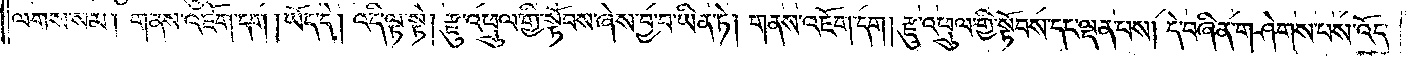ལགས་སམ། གནས་འཇོག་དག །ཡོད་དེ། འདི་ལྟ་སྟེ། རྫུ་འཕྲུལ་གྱི་སྟོབས་ཞེས་བྱ་བ་ཡིན་ཏེ། གནས་འཇོག་དག །རྫུ་འཕྲུལ་གྱི་སྟོབས་དང་ལྡན་པས། དེ་བཞིན་གཤེགས་པས་འོད་
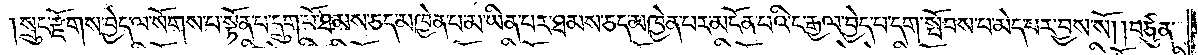།སྲུང་རྫོགས་བྱེད་ལ་སོགས་པ་སྟོན་པ་དྲུག་པོ་ཐམས་ཅད་མཁྱེན་པ་མ་ཡིན་པར་ཐམས་ཅད་མཁྱེན་པར་མངོན་པའི་ང་རྒྱལ་བྱེད་པ་དག་སྤོབས་པ་མེད་པར་བྱས་སོ། །བཙུན་
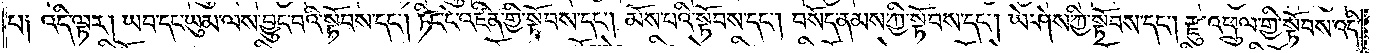པ། འདི་ལྟར། ཡབ་དང་ཡུམ་ལས་བྱུང་བའི་སྟོབས་དང༌། ཏིང་ངེ་འཛིན་གྱི་སྟོབས་དང༌། མོས་པའི་སྟོབས་དང༌། བསོད་ནམས་ཀྱི་སྟོབས་དང༌། ཡེ་ཤེས་ཀྱི་སྟོབས་དང༌། རྫུ་འཕྲུལ་གྱི་སྟོབས་འདི་
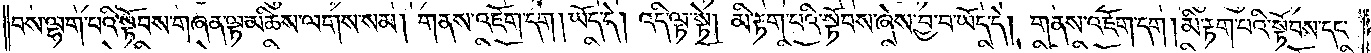བས་ལྷག་པའི་སྟོབས་གཞན་ལྟ་མཆིས་ལགས་སམ། གནས་འཇོག་དག །ཡོད་དེ། འདི་ལྟ་སྟེ། མི་རྟག་པའི་སྟོབས་ཞེས་བྱ་བ་ཡོད་དེ། གནས་འཇོག་དག །མི་རྟག་པའི་སྟོབས་དང་
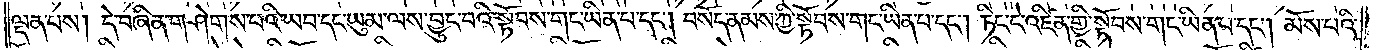ལྡན་པས། དེ་བཞིན་གཤེགས་པའི་ཡབ་དང་ཡུམ་ལས་བྱུང་བའི་སྟོབས་གང་ཡིན་པ་དང༌། བསོད་ནམས་ཀྱི་སྟོབས་གང་ཡིན་པ་དང༌། ཏིང་ངེ་འཛིན་གྱི་སྟོབས་གང་ཡིན་པ་དང༌། མོས་པའི་
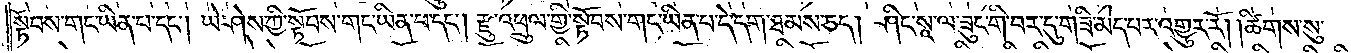སྟོབས་གང་ཡིན་པ་དང༌། ཡེ་ཤེས་ཀྱི་སྟོབས་གང་ཡིན་པ་དང༌། རྫུ་འཕྲུལ་གྱི་སྟོབས་གང་ཡིན་པ་དེ་དག་ཐམས་ཅད། ཤིང་སཱ་ལ་ཟུང་གི་བར་དུ་གཟི་མེད་པར་འགྱུར་རོ། །ཚིགས་སུ་
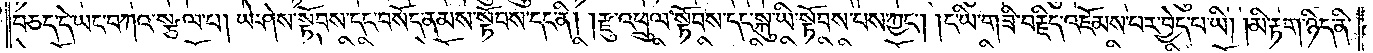བཅད་དེ་ཡང་བཀའ་སྩལ་པ། ཡེ་ཤེས་སྟོབས་དང་བསོད་ནམས་སྟོབས་དང་ནི། །རྫུ་འཕྲུལ་སྟོབས་དང་སྐུ་ཡི་སྟོབས་པས་ཀྱང༌། །ང་ཡི་གཟི་བརྗིད་འཇོམས་པར་བྱེད་པ་ཡི། །མི་རྟག་ཉིད་ནི་
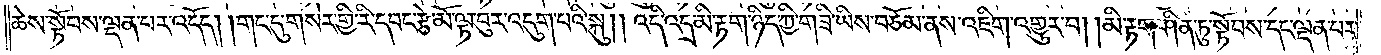ཆེས་སྟོབས་ལྡན་པར་འདོད། གང་དུ་གསེར་གྱི་རི་དབང་རྩེ་མོ་ལྟ་བུར་འདུག་པའི་སྐུ། །འདི་འདྲ་མི་རྟག་ཉིད་ཀྱི་གཟི་ཡིས་བཅོམ་ནས་འཇིག་འགྱུར་བ། །མི་རྟག་ཤིན་ཏུ་སྟོབས་དང་ལྡན་པར་
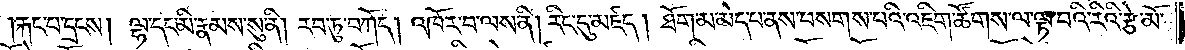རྐང་པ་དྲངས། ལྷ་དང་མི་རྣམས་སུ་ནི། རབ་ཏུ་བཀོད། འཁོར་བ་ལས་ནི། རིང་དུ་མཛད། ཐོག་མ་མེད་པ་ནས་བསགས་པའི་འཇིག་ཚོགས་ལ་ལྟ་བའི་རིའི་རྩེ་མོ་
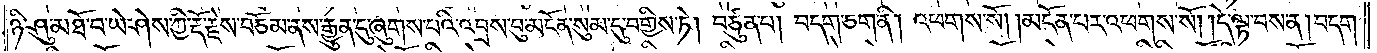ཉི་ཤུ་མཐོ་བ་ཡེ་ཤེས་ཀྱི་རྡོ་རྗེས་བཅོམ་ནས་རྒྱུན་དུ་ཞུགས་པའི་འབྲས་བུ་མངོན་སུམ་དུ་བགྱིས་ཏེ། བཙུན་པ། བདག་ཅག་ནི། འཕགས་སོ། །མངོན་པར་འཕགས་སོ། །དེ་ལྟ་བས་ན། བདག་
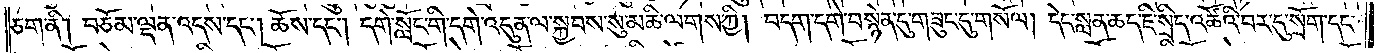ཅག་ནི། བཅོམ་ལྡན་འདས་དང༌། ཆོས་དང༌། དགེ་སློང་གི་དགེ་འདུན་ལ་སྐྱབས་སུ་མཆི་ལགས་ཀྱི། བདག་དགེ་བསྙེན་དུ་གཟུང་དུ་གསོལ། དེང་སླན་ཆད་ཇི་སྲིད་འཚོའི་བར་དུ་སྲོག་དང་
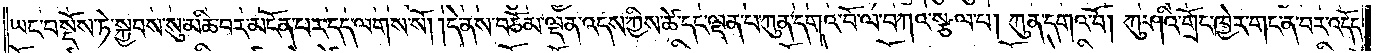ཡང་བསྔོས་ཏེ་སྐྱབས་སུ་མཆི་བར་མངོན་པར་དད་ལགས་སོ། །དེ་ནས་བཅོམ་ལྡན་འདས་ཀྱིས་ཚེ་དང་ལྡན་པ་ཀུན་དགའ་བོ་ལ་བཀའ་སྩལ་པ། ཀུན་དགའ་བོ། ཀུ་ཤའི་གྲོང་ཁྱེར་གང་ན་བར་འདོད་
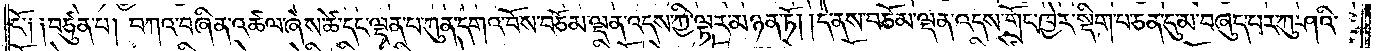ངོ༑ ༑བཙུན་པ། བཀའ་བཞིན་འཚལ་ཞེས་ཚེ་དང་ལྡན་པ་ཀུན་དགའ་བོས་བཅོམ་ལྡན་འདས་ཀྱི་ལྟར་མཉན་ཏོ། །དེ་ནས་བཅོམ་ལྡན་འདས་གྲོང་ཁྱེར་སྡིག་པ་ཅན་དུ་མ་བཞུད་པར་ཀུ་ཤའི་
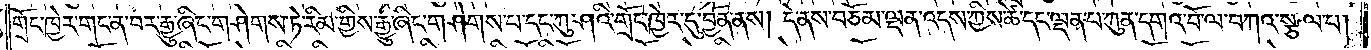གྲོང་ཁྱེར་གང་ན་བར་རྒྱུ་ཞིང་གཤེགས་ཏེ་རིམ་གྱིས་རྒྱུ་ཞིང་གཤེགས་པ་དང་ཀུ་ཤའི་གྲོང་ཁྱེར་དུ་བྱོན་ནས། དེ་ནས་བཅོམ་ལྡན་འདས་ཀྱིས་ཚེ་དང་ལྡན་པ་ཀུན་དགའ་བོ་ལ་བཀའ་སྩལ་པ།
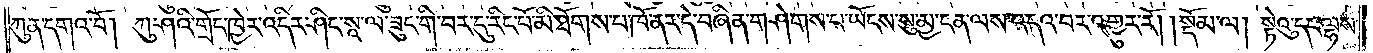ཀུན་དགའ་བོ། ཀུ་ཤའི་གྲོང་ཁྱེར་འདིར་ཤིང་སཱ་ལ་ཟུང་གི་བར་དུ་རིང་པོ་མི་ཐོགས་པ་ཁོ་ནར་དེ་བཞིན་གཤེགས་པ་ཡོངས་སུ་མྱ་ངན་ལས་འདའ་བར་འགྱུར་རོ།    །སྡོམ་ལ། སྟེའུ་དང་ལྷས་
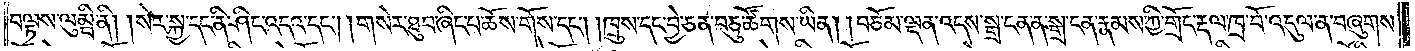བལྟས་ལུམྦི་ནི། །སེར་སྐྱ་དང་ནི་ཤིང་འདའ་དང༌། །གསེར་ཐུབ་ཞིང་པ་ཆོས་གོས་དང༌། །ཁྲུས་དང་བྱེ་ཅན་བཅུ་ཚོགས་ཡིན། །བཅོམ་ལྡན་འདས་སྒྲ་ངན་ན་སྒྲ་ངན་རྣམས་ཀྱི་གྲོང་རྡལ་ཁྲ་བོ་འདུལ་ན་བཞུགས་
